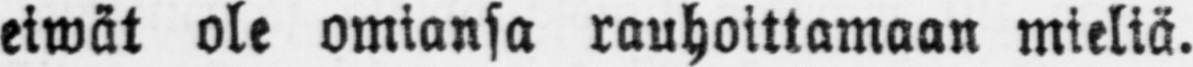eiwät ole omiansa rauhoittamaan mieliä.
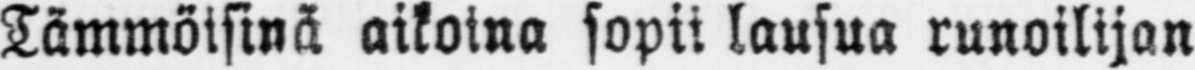Tämmöisinä aikoina sopii lausua runoilijan
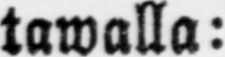tawalla:
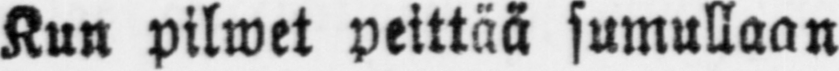Kun pilwet peittää sumullaan
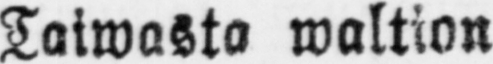Taiwasto waltion
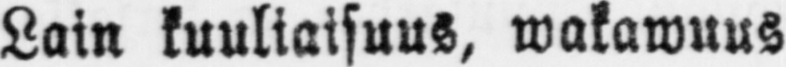Lain kuuliaisuus, wakawuus
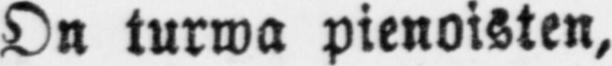On turwa pienoisten,
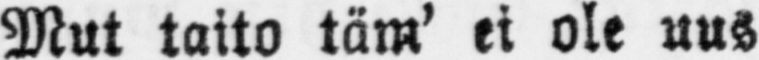Mut taito täm' ei ole uus
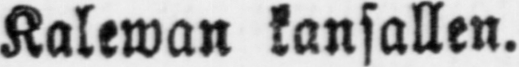Kalewan kansallen.
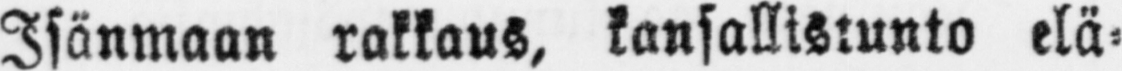Isänmaan rakkaus, kansallistunto elä-
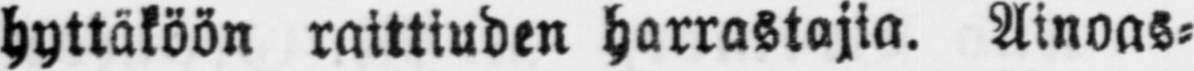hyttäköön raittiuden harrastajia. Ainoas-
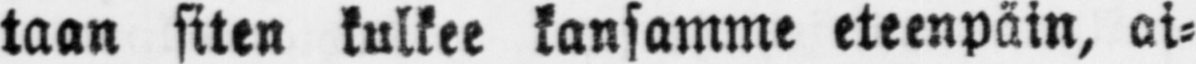taan siten kulkee kansamme eteenpäin, ai-
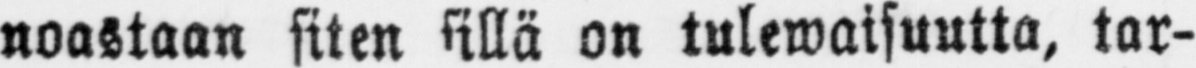noastaan siten sillä on tulewaisuutta, tar-
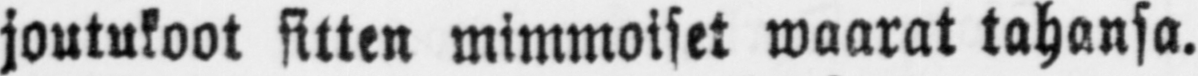joutukoot sitten mimmoiset maarat tahansa.
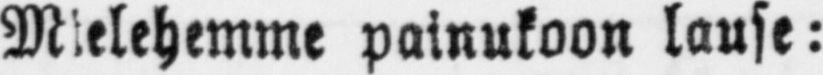Melehemme painukoon lause:
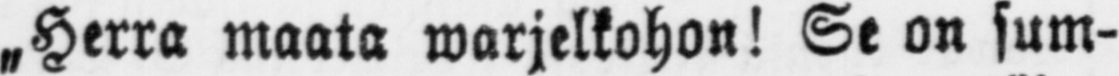„Herra maata warjelkohon! Se on sum-
